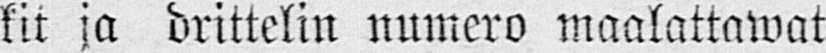kit ja drittelin numero maalattawat
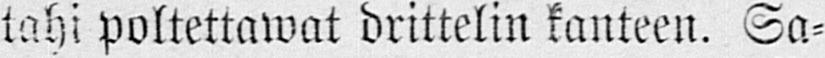tahi poltettawat drittelin kanteen. Sa-
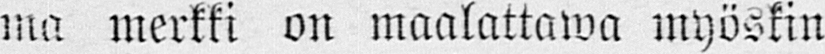ma merkki on maalattawa myöskin
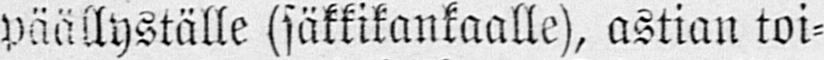päällyställe (säkkikankaalle), astian toi-
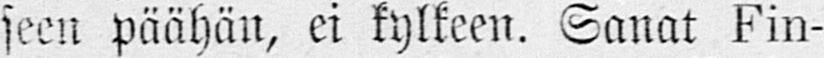seen päähän, ei kylkeen. Sanat Fin-
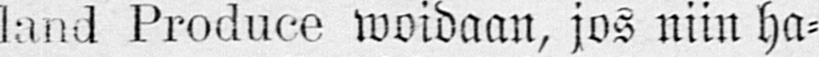land Produce woidaan, jos niin ha-
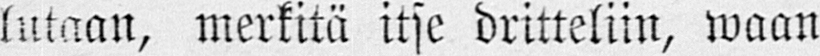lutaan, merkitä itse dritteliin, waan
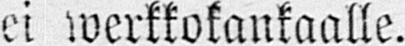ei werkkokankaalle.
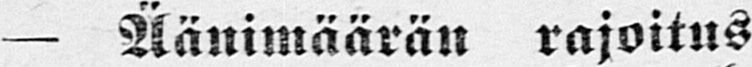— Äänimäärän rajoitus
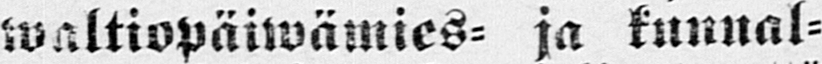waltiopäiwämies- ja kunnal-
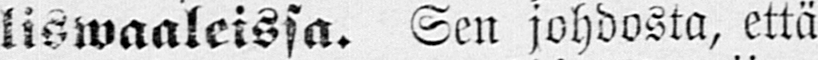liswaaleissa. Sen johdosta, että
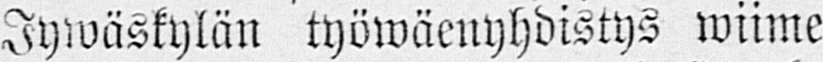Jywäskylän työwäenyhdistys wiime
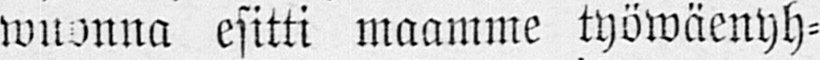wuonna esitti maamme työwäenyh-
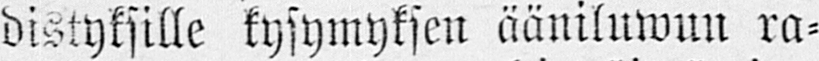distyksille kysymyksen ääniluwun ra-
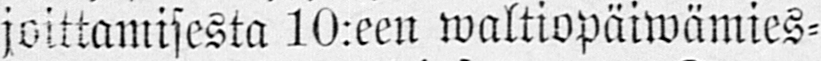joittamisesta 10:een waltiopäiwämies-
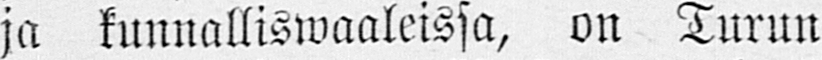ja kunnalliswaaleissa, on Turun
